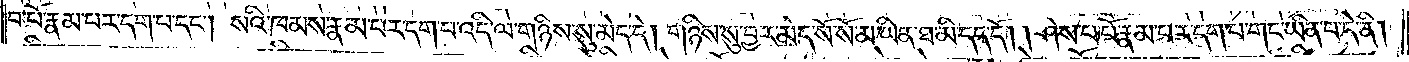བ་པོ་རྣམ་པར་དག་པ་དང༌། སའི་ཁམས་རྣམ་པར་དག་པ་འདི་ལ་གཉིས་སུ་མེད་དེ། གཉིས་སུ་བྱར་མེད་སོ་སོ་མ་ཡིན་ཐ་མི་དད་དོ། །ཤེས་པ་པོ་རྣམ་པར་དག་པ་གང་ཡིན་པ་དེ་ནི།
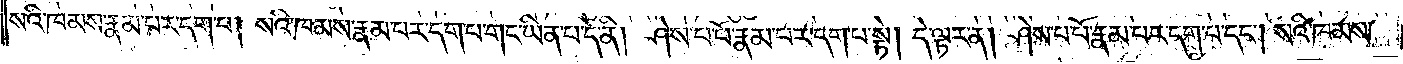སའི་ཁམས་རྣམ་པར་དག་པ། སའི་ཁམས་རྣམ་པར་དག་པ་གང་ཡིན་པ་དེ་ནི། ཤེས་པ་པོ་རྣམ་པར་དག་པ་སྟེ། དེ་ལྟར་ན། ཤེས་པ་པོ་རྣམ་པར་དག་པ་དང༌། སའི་ཁམས་
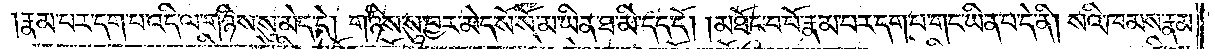རྣམ་པར་དག་པ་འདི་ལ་གཉིས་སུ་མེད་དེ། གཉིས་སུ་བྱར་མེད་སོ་སོ་མ་ཡིན་ཐ་མི་དད་དོ། །མཐོང་བ་པོ་རྣམ་པར་དག་པ་གང་ཡིན་པ་དེ་ནི། སའི་ཁམས་རྣམ་
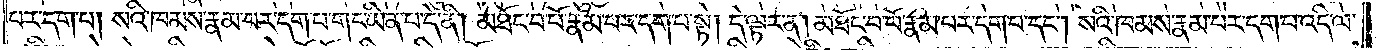པར་དག་པ། སའི་ཁམས་རྣམ་པར་དག་པ་གང་ཡིན་པ་དེ་ནི། མཐོང་བ་པོ་རྣམ་པར་དག་པ་སྟེ། དེ་ལྟར་ན། མཐོང་བ་པོ་རྣམ་པར་དག་པ་དང༌། སའི་ཁམས་རྣམ་པར་དག་པ་འདི་ལ་
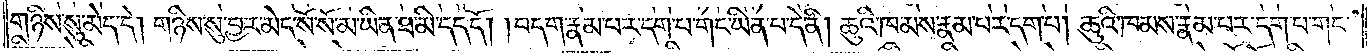གཉིས་སུ་མེད་དེ། གཉིས་སུ་བྱར་མེད་སོ་སོ་མ་ཡིན་ཐ་མི་དད་དོ། །བདག་རྣམ་པར་དག་པ་གང་ཡིན་པ་དེ་ནི། ཆུའི་ཁམས་རྣམ་པར་དག་པ། ཆུའི་ཁམས་རྣམ་པར་དག་པ་གང་
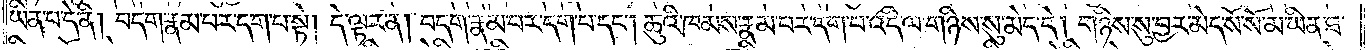ཡིན་པ་དེ་ནི། བདག་རྣམ་པར་དག་པ་སྟེ། དེ་ལྟར་ན། བདག་རྣམ་པར་དག་པ་དང༌། ཆུའི་ཁམས་རྣམ་པར་དག་པ་འདི་ལ་གཉིས་སུ་མེད་དེ། གཉིས་སུ་བྱར་མེད་སོ་སོ་མ་ཡིན་ཐ་
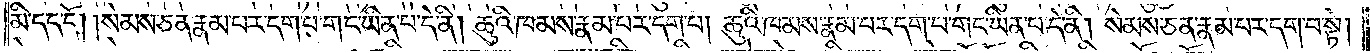མི་དད་དོ། །སེམས་ཅན་རྣམ་པར་དག་པ་གང་ཡིན་པ་དེ་ནི། ཆུའི་ཁམས་རྣམ་པར་དག་པ། ཆུའི་ཁམས་རྣམ་པར་དག་པ་གང་ཡིན་པ་དེ་ནི། སེམས་ཅན་རྣམ་པར་དག་པ་སྟེ།
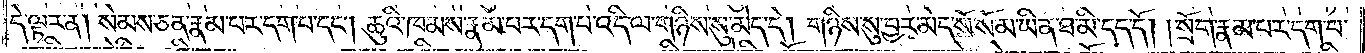དེ་ལྟར་ན། སེམས་ཅན་རྣམ་པར་དག་པ་དང༌། ཆུའི་ཁམས་རྣམ་པར་དག་པ་འདི་ལ་གཉིས་སུ་མེད་དེ། གཉིས་སུ་བྱར་མེད་སོ་སོ་མ་ཡིན་ཐ་མི་དད་དོ། །སྲོག་རྣམ་པར་དག་པ་
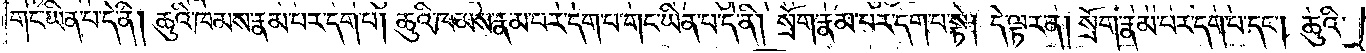གང་ཡིན་པ་དེ་ནི། ཆུའི་ཁམས་རྣམ་པར་དག་པ། ཆུའི་ཁམས་རྣམ་པར་དག་པ་གང་ཡིན་པ་དེ་ནི། སྲོག་རྣམ་པར་དག་པ་སྟེ། དེ་ལྟར་ན། སྲོག་རྣམ་པར་དག་པ་དང༌། ཆུའི་
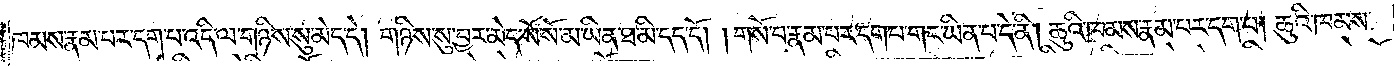ཁམས་རྣམ་པར་དག་པ་འདི་ལ་གཉིས་སུ་མེད་དེ། གཉིས་སུ་བྱར་མེད་སོ་སོ་མ་ཡིན་ཐ་མི་དད་དོ། །གསོ་བ་རྣམ་པར་དག་པ་གང་ཡིན་པ་དེ་ནི། ཆུའི་ཁམས་རྣམ་པར་དག་པ། ཆུའི་ཁམས་
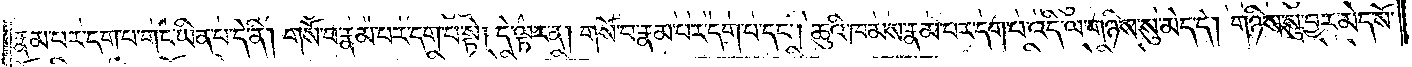རྣམ་པར་དག་པ་གང་ཡིན་པ་དེ་ནི། གསོ་བ་རྣམ་པར་དག་པ་སྟེ། དེ་ལྟར་ན། གསོ་བ་རྣམ་པར་དག་པ་དང༌། ཆུའི་ཁམས་རྣམ་པར་དག་པ་འདི་ལ་གཉིས་སུ་མེད་དེ། གཉིས་སུ་བྱར་མེད་སོ་
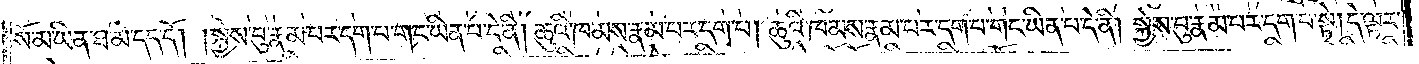སོ་མ་ཡིན་ཐ་མི་དད་དོ། །སྐྱེས་བུ་རྣམ་པར་དག་པ་གང་ཡིན་པ་དེ་ནི། ཆུའི་ཁམས་རྣམ་པར་དག་པ། ཆུའི་ཁམས་རྣམ་པར་དག་པ་གང་ཡིན་པ་དེ་ནི། སྐྱེས་བུ་རྣམ་པར་དག་པ་སྟེ། དེ་ལྟར་
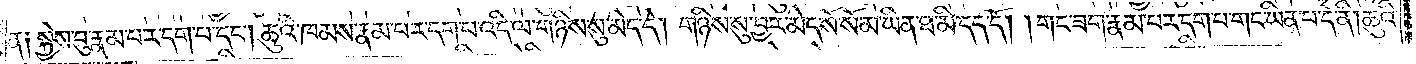ན༑ སྐྱེས་བུ་རྣམ་པར་དག་པ་དང༌། ཆུའི་ཁམས་རྣམ་པར་དག་པ་འདི་ལ་གཉིས་སུ་མེད་དེ། གཉིས་སུ་བྱར་མེད་སོ་སོ་མ་ཡིན་ཐ་མི་དད་དོ། །གང་ཟག་རྣམ་པར་དག་པ་གང་ཡིན་པ་དེ་ནི། ཆུའི་
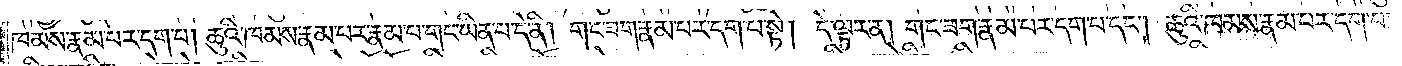ཁམས་རྣམ་པར་དག་པ། ཆུའི་ཁམས་རྣམ་པར་དག་པ་གང་ཡིན་པ་དེ་ནི། གང་ཟག་རྣམ་པར་དག་པ་སྟེ། དེ་ལྟར་ན། གང་ཟག་རྣམ་པར་དག་པ་དང༌། ཆུའི་ཁམས་རྣམ་པར་དག་པ་
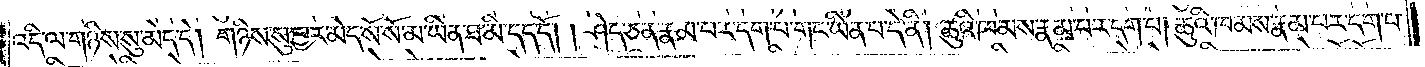འདི་ལ་གཉིས་སུ་མེད་དེ། གཉིས་སུ་བྱར་མེད་སོ་སོ་མ་ཡིན་ཐ་མི་དད་དོ། །ཤེད་ཅན་རྣམ་པར་དག་པ་གང་ཡིན་པ་དེ་ནི། ཆུའི་ཁམས་རྣམ་པར་དག་པ། ཆུའི་ཁམས་རྣམ་པར་དག་པ་
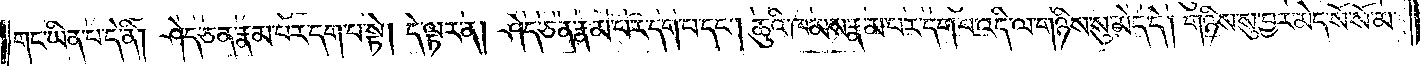གང་ཡིན་པ་དེ་ནི། ཤེད་ཅན་རྣམ་པར་དག་པ་སྟེ། དེ་ལྟར་ན། ཤེད་ཅན་རྣམ་པར་དག་པ་དང༌། ཆུའི་ཁམས་རྣམ་པར་དག་པ་འདི་ལ་གཉིས་སུ་མེད་དེ། གཉིས་སུ་བྱར་མེད་སོ་སོ་མ་
